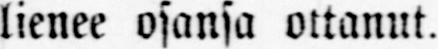lienee osansa ottanut.
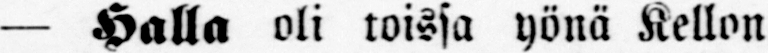— Halla oli toissa yönä Kellon
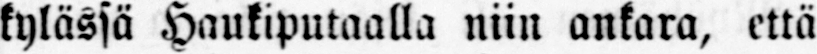kylässä Haukiputaalla niin ankara, että
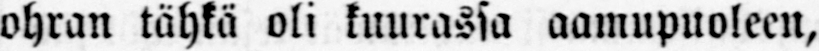ohran tähkä oli kuurassa aamupuoleen,
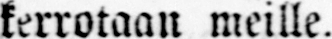kerrotaan meille.
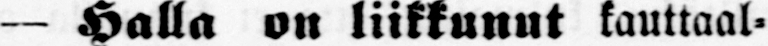— Halla on liikkunut kauttaal-
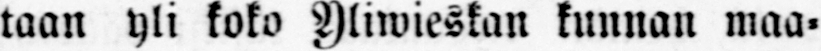taan yli kota Yliwieskan kunnan maa-
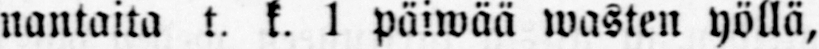nantaita t. k. l päiwää wasten yöllä,
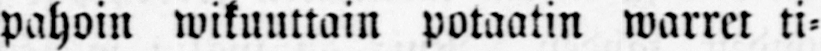pahoin wikuuttain potaatin warrer ti-
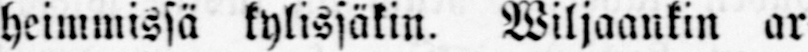heimmissä kylissäkin. Wiljaankin ar-
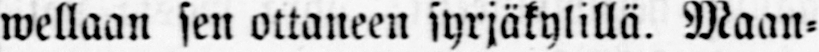wellaan sen ottaneen syrjäkylillä. Maan-
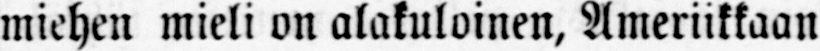miehen mieli on alakuloinen, Ameriikkaan
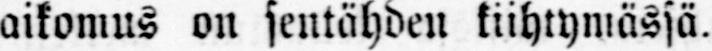aikomus on sentähden kiihtymässä.
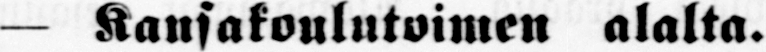— Kansakoulutoimen alalta.
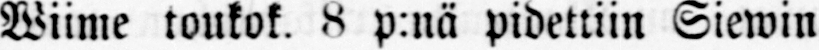Wiime toukok. 8 p:nä pidettiin Siewin
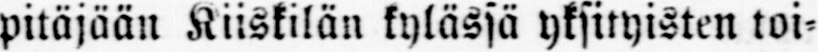pitäjään Kiiskilän kylässä yksityisten toi-
